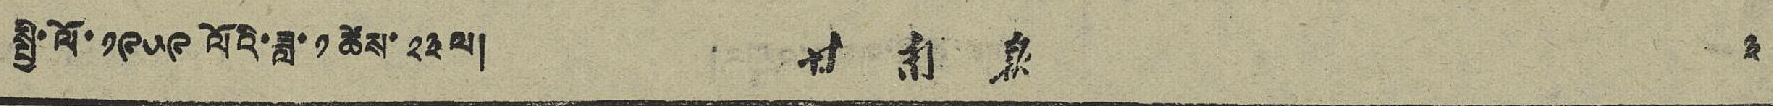སྤྱི་ལོ་ ༡༩༥༩ ལོའི་ཟླ་ ༡ ཚེས་ ༢༣ ལ། 甘 南 報 ༣
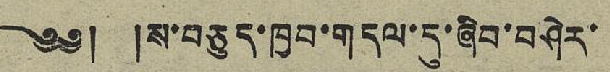༄༅། །ས་བཅུད་ཁྱབ་གདལ་དུ་ཞིབ་བཤེར་
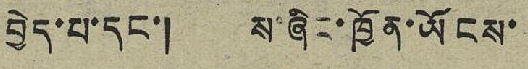བྱེད་པ་དང་། ས་ཞིང་ཁྱོན་ཡོངས་
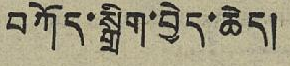བཀོད་སྒྲིག་བྱེད་ཆེད།
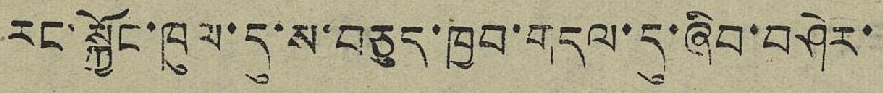རང་སྐྱོང་ཁུལ་དུ་ས་བཅུད་ཁྱབ་གདལ་དུ་ཞིབ་བཤེར་
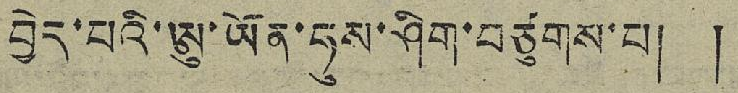བྱེད་པའི་ཨུ་ཡོན་ཧུས་ཤིག་བཙུགས་པ། །
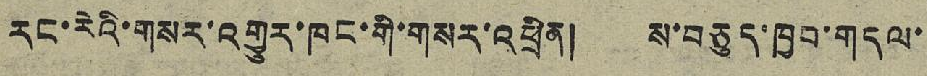རང་རེའི་གསར་འགྱུར་ཁང་གི་གསར་འཕྲིན། ས་བཅུད་ཁྱབ་གདལ་
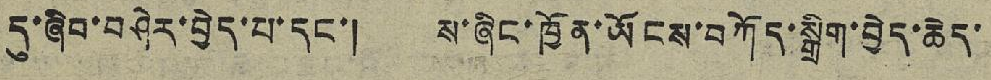དུ་ཞིབ་བཤེར་བྱེད་པ་དང་། ས་ཞིང་ཁྱོན་ཡོངས་བཀོད་སྒྲིག་བྱེད་ཆེད་
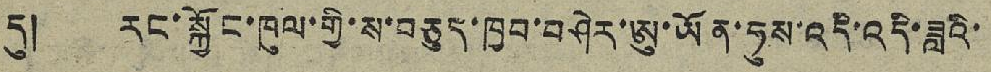དུ། རང་སྐྱོང་ཁུལ་གྱི་ས་བཅུད་ཁྱབ་བཤེར་ཨུ་ཡོན་ཧུས་འདི་འདི་ཟླའི་
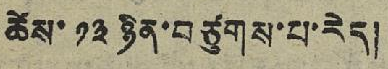ཚེས་ ༡༣ ཉིན་བཙུགས་པ་རེད།
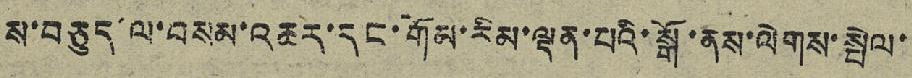ས་བཅུད་ལ་བསམ་འཆར་དང་གོམ་རིམ་ལྡན་པའི་སྒོ་ནས་ལེགས་སྦེལ་
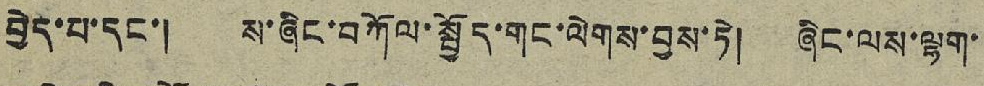བྱེད་པ་དང་། ས་ཞིང་བཀོལ་སྦྱོད་གང་ལེགས་བྱས་ཏེ། ཞིང་ལས་ལྷག་
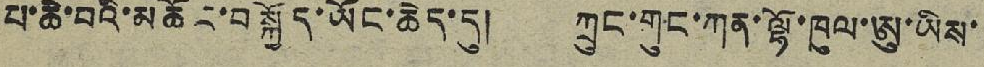པ་ཆེ་བའི་མཆོང་བསྐྱོད་ཡོང་ཆེད་དུ། ཀྲུང་གུང་ཀན་ལྷོ་ཁུལ་ཨུ་ཡིས་
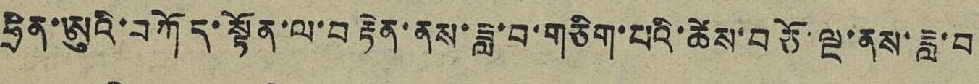ཧྲིན་ཨུའི་བཀོད་སྟོན་ལ་བརྟེན་ནས་ཟླ་བ་གཅིག་པའི་ཚེས་བཅོ་ལྔ་ནས་ཟླ་བ
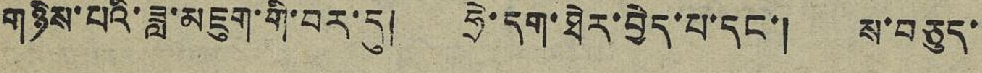གཉིས་པའི་ཟླ་མཇུག་གི་བར་དུ། ཧྲེ་དག་ཐེར་བྱེད་པ་དང་། ས་བཅུད་
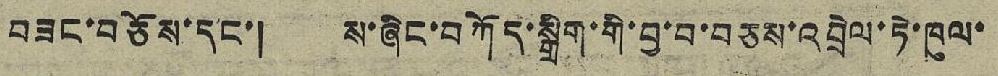བཟང་བཅོས་དང་། ས་ཞིང་བཀོད་སྒྲིག་གི་བྱ་བ་བཅས་འབྲེལ་ཏེ་ཁུལ་
